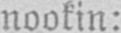nookin:
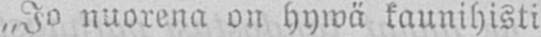„Jo nuorena on hywä kaunihisti
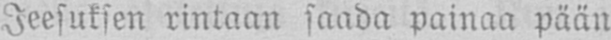Jeesuksen rintaan saada painaa pään
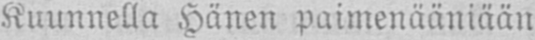Kuunnella Hänen paimenääniään
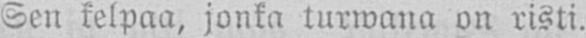Sen kelpaa, jonka turwana on risti.
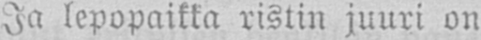Ja lepopaikka ristin juuri on
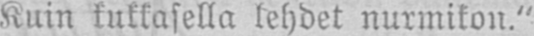Kuin kukkasella lehdet nurmikon."
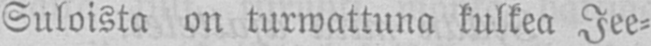Suloista on turwattuna kulkea Jee-
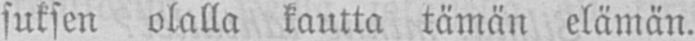suksen olalla kautta tämän elämän.
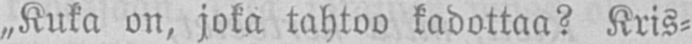„Kuka on, joka tahtoo kadottaa? Kris-
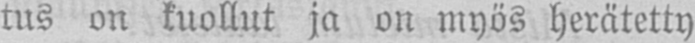tus on kuollut ja on myös herätetty
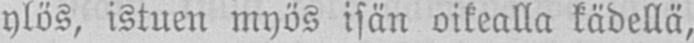ylös, istuen myös isän oikealla kädellä,
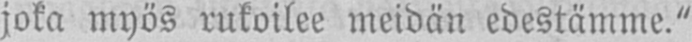joka myös rukoilee meidän edestämme."
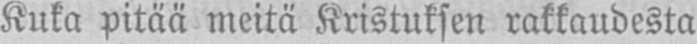Kuka pitää meitä Kristuksen rakkaudesta
